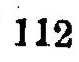112
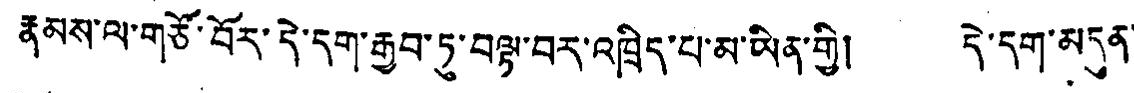རྣམས་ལ་གཙོ་བོར་དེ་དག་རྒྱབ་ཏུ་བལྟ་བར་འཁྲིད་པ་མ་ཡིན་གྱི། དེ་དག་མདུན་
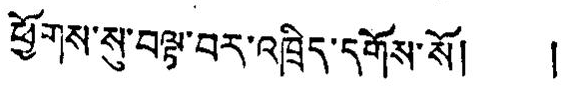ཕྱོགས་སུ་བལྟ་བར་འཁྲིད་དགོས་སོ། །
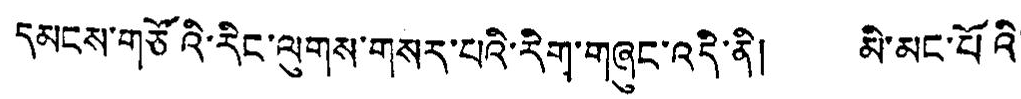དམངས་གཙོའི་རིང་ལུགས་གསར་པའི་རིག་གཞུང་འདི་ནི། མི་མང་པོའི་
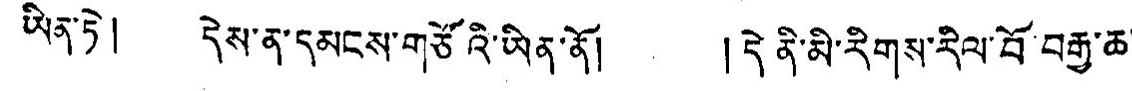ཡིན་ཏེ། དེས་ན་དམངས་གཙོའི་ཡིན་ནོ། །དེ་ནི་མི་རིགས་རིལ་བོ་བརྒྱ་ཆེ་
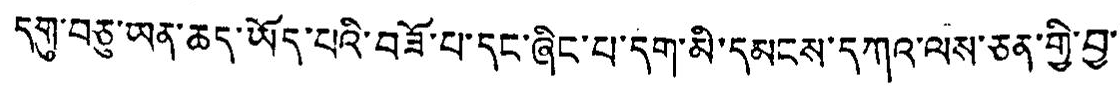དགུ་བཅུ་ཡན་ཆད་ཡོད་པའི་བཟོ་པ་དང་ཞིང་པ་དག་མི་དམངས་དཀའ་ལས་ཅན་གྱི་བྱ་་
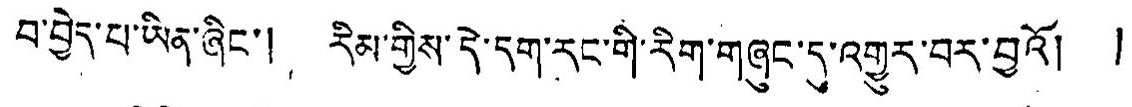བ་བྱེད་པ་ཡིན་ཞིང་། རིམ་གྱིས་དེ་དག་རང་གི་རིག་གཞུང་དུ་འགྱུར་བར་བྱའོ། །
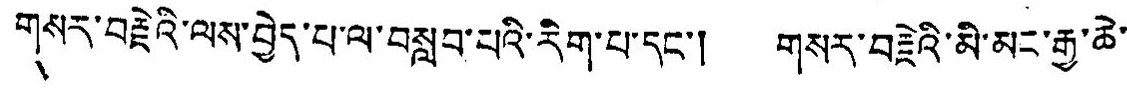གསར་བརྗེའི་ལས་བྱེད་པ་ལ་བསླབ་པའི་རིག་པ་དང་། གསར་བརྗེའི་མི་མང་རྒྱི་ཆེ་
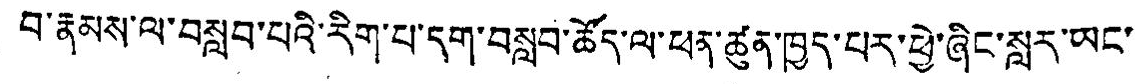བ་རྣམས་ལ་བསླབ་པའི་རིག་པ་དག་བསླབ་ཚོད་ལ་ཕན་ཚུན་ཁྱད་པར་ཕྱེ་ཞིང་སླར་ཡང་
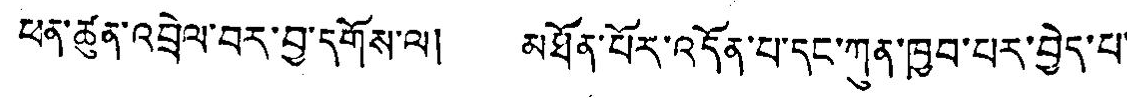ཕན་ཚུན་འབྲེལ་བར་བྱ་དགོས་ལ། མཐོན་པོར་འདོན་པ་དང་ཀུན་ཁྱབ་པར་བྱེད་པ་
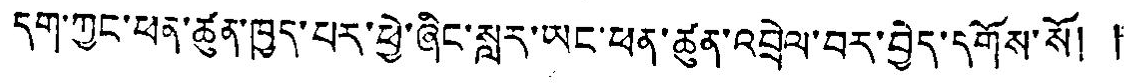དག་ཀྱང་ཕན་ཚུན་ཁྱད་པར་ཕྱེ་ཞིང་སླར་ཡང་ཕན་ཚུན་འབྲེལ་བར་བྱེད་དགོས་སོ། །
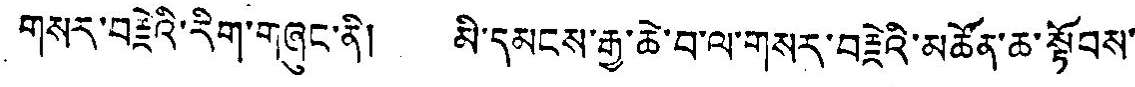གསར་བརྗེའི་རིག་གཞུང་ནི། མི་དམངས་རྒྱ་ཆེ་བ་ལ་གསར་བརྗེའི་མཚོན་ཆ་སྟོབས་
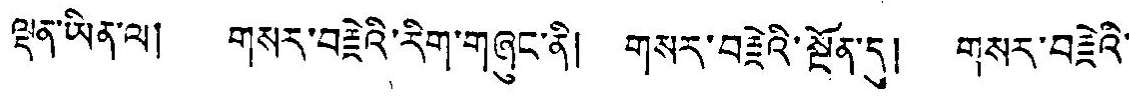ལྡན་ཡིན་ལ། གསར་བརྗེའི་རིག་གཞུང་ནི། གསར་བརྗེའི་སྔོན་དུ། གསར་བརྗེའི་
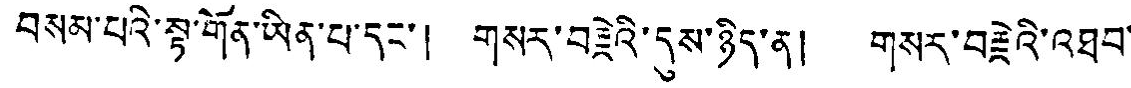བསམ་པའི་སྟ་གོན་ཡིན་པ་དང་། གསར་བརྗེའི་དུས་ཉིད་ན། གསར་བརྗེའི་འཐབ་
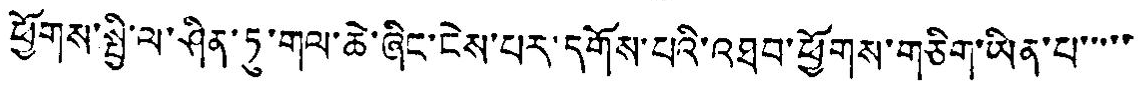ཕྱོགས་སྤྱི་ལ་ཤིན་ཏུ་གལ་ཆེ་ཞིང་ངེས་པར་དགོས་པའི་འཐབ་ཕྱོགས་གཅིག་ཡིན་པ་་་་་་
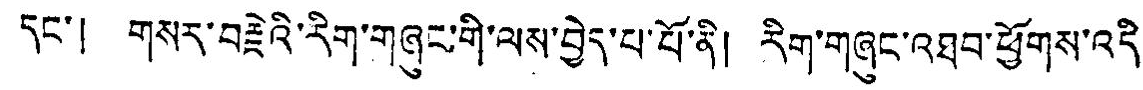དང་། གསར་བརྗེའི་རིག་གཞུང་གི་ལས་བྱེད་པ་པོ་ནི། རིག་གཞུང་འཐབ་ཕྱོགས་འདི་
